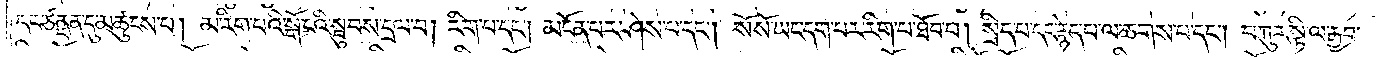དང་ཙནྡན་དུ་མཚུངས་པ། མ་རིག་པའི་སྒོ་ངའི་སྦུབས་དྲལ་བ། རིག་པ་དང༌། མངོན་པར་ཤེས་པ་དང༌། སོ་སོ་ཡང་དག་པར་རིག་པ་ཐོབ་པ། སྲིད་པ་དང་རྙེད་པ་ལ་ཆགས་པ་དང༌། བཀུར་སྟི་ལ་རྒྱབ་
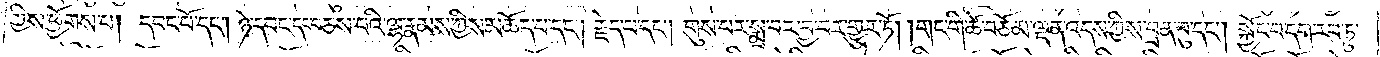ཀྱིས་ཕྱོགས་པ། དབང་པོ་དང༌། ཉེ་དབང་དང་བཅས་པའི་ལྷ་རྣམས་ཀྱིས་མཆོད་པ་དང༌། རྗེད་པ་དང༌། གུས་པར་སྨྲ་བར་བྱ་བར་གྱུར་ཏོ། །གང་གི་ཚེ་བཅོམ་ལྡན་འདས་ཀྱིས་བྲན་བུ་དང༌། སྐྱོང་བ་དག་རབ་ཏུ་
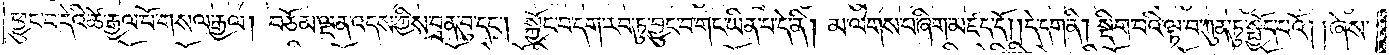ཕྱུང་བ་དེའི་ཚེ་རྒྱལ་པོ་གསལ་རྒྱལ། བཅོམ་ལྡན་འདས་ཀྱིས་བྲན་བུ་དང༌། སྐྱོང་བ་དག་རབ་ཏུ་བྱུང་བ་གང་ཡིན་པ་དེ་ནི། མ་ལེགས་པ་ཞིག་མཛད་དོ། །དེ་དག་ནི། སྡིག་པའི་ལྟ་བ་ཀུན་ཏུ་སྤྱོད་པའོ། །ཞེས་
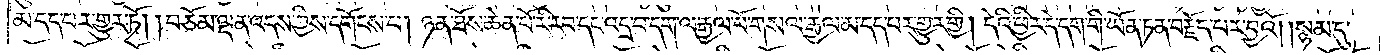མ་དད་པར་གྱུར་ཏོ། །བཅོམ་ལྡན་འདས་ཀྱིས་དགོངས་པ། ཉན་ཐོས་ཆེན་པོ་རི་རབ་དང་འདྲ་བ་དག་ལ་རྒྱལ་པོ་གསལ་རྒྱལ་མ་དད་པར་གྱུར་གྱི། དེའི་ཕྱིར་དེ་དག་གི་ཡོན་ཏན་བརྗོད་པར་བྱའོ། །སྙམ་དུ་
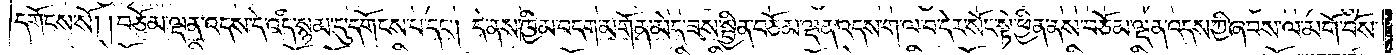དགོངས་སོ། །བཅོམ་ལྡན་འདས་དེ་འདི་སྙམ་དུ་དགོངས་པ་དང༌། དེ་ནས་ཁྱིམ་བདག་མགོན་མེད་ཟས་སྦྱིན་བཅོམ་ལྡན་འདས་ག་ལ་བ་དེར་སོང་སྟེ་ཕྱིན་ནས་བཅོམ་ལྡན་འདས་ཀྱི་ཞབས་ལ་མགོ་བོས་
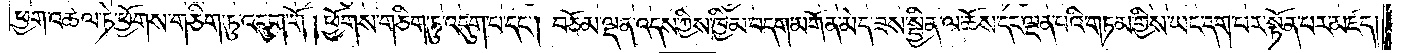ཕྱག་འཚལ་ཏེ་ཕྱོགས་གཅིག་ཏུ་འདུག་གོ །ཕྱོགས་གཅིག་ཏུ་འདུག་པ་དང༌། བཅོམ་ལྡན་འདས་ཀྱིས་ཁྱིམ་བདག་མགོན་མེད་ཟས་སྦྱིན་ལ་ཆོས་དང་ལྡན་པའི་གཏམ་གྱིས་ཡང་དག་པར་སྟོན་པར་མཛད།
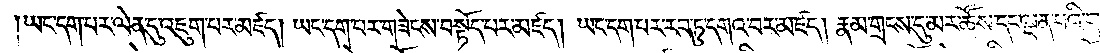ཡང་དག་པར་ལེན་དུ་འཇུག་པར་མཛད། ཡང་དག་པར་གཟེངས་བསྟོད་པར་མཛད། ཡང་དག་པར་རབ་ཏུ་དགའ་བར་མཛད། རྣམ་གྲངས་དུ་མར་ཆོས་དང་ལྡན་པའི་གཏམ་གྱིས་
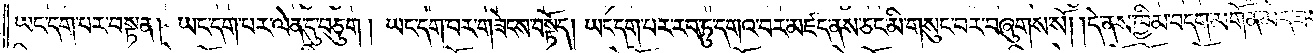ཡང་དག་པར་བསྟན། ཡང་དག་པར་ལེན་དུ་བཅུག། ཡང་དག་པར་གཟེངས་བསྟོད། ཡང་དག་པར་རབ་ཏུ་དགའ་བར་མཛད་ནས་ཅང་མི་གསུང་བར་བཞུགས་སོ། །དེ་ནས་ཁྱིམ་བདག་མགོན་མེད་ཟས་
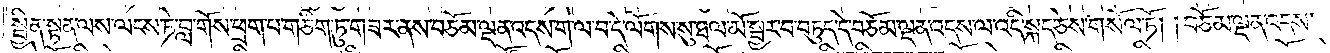སྦྱིན་སྟན་ལས་ལངས་ཏེ་བླ་གོས་ཕྲག་པ་གཅིག་ཏུ་གཟར་ནས་བཅོམ་ལྡན་འདས་ག་ལ་བ་དེ་ལོགས་སུ་ཐལ་མོ་སྦྱར་བ་བཏུད་དེ་བཅོམ་ལྡན་འདས་ལ་འདི་སྐད་ཅེས་གསོལ་ཏོ། །བཅོམ་ལྡན་འདས་
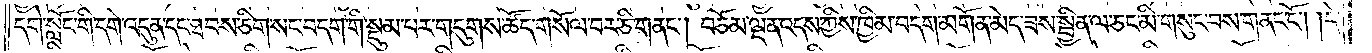དགེ་སློང་གི་དགེ་འདུན་དང་ཐབས་ཅིག་སང་བདག་གི་སྡུམ་པར་གདུགས་ཚོད་གསོལ་བར་ཅི་གནང༌། བཅོམ་ལྡན་འདས་ཀྱིས་ཁྱིམ་བདག་མགོན་མེད་ཟས་སྦྱིན་ལ་ཅང་མི་གསུང་བས་གནང་ངོ༌། །དེ་
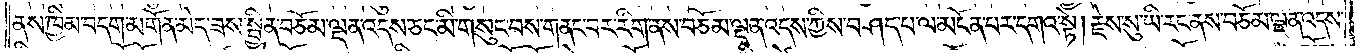ནས་ཁྱིམ་བདག་མགོན་མེད་ཟས་སྦྱིན་བཅོམ་ལྡན་འདས་ཅང་མི་གསུང་བས་གནང་བར་རིག་ནས་བཅོམ་ལྡན་འདས་ཀྱིས་བཤད་པ་ལ་མངོན་པར་དགའ་སྟེ། རྗེས་སུ་ཡི་རང་ནས་བཅོམ་ལྡན་འདས་
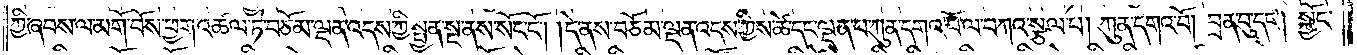ཀྱི་ཞབས་ལ་མགོ་བོས་ཕྱག་འཚལ་ཏེ་བཅོམ་ལྡན་འདས་ཀྱི་སྤྱན་སྔ་ནས་སོང་ངོ༌། །དེ་ནས་བཅོམ་ལྡན་འདས་ཀྱིས་ཚེ་དང་ལྡན་པ་ཀུན་དགའ་བོ་ལ་བཀའ་སྩལ་པ། ཀུན་དགའ་བོ། བྲན་བུ་དང༌། སྐྱོང་
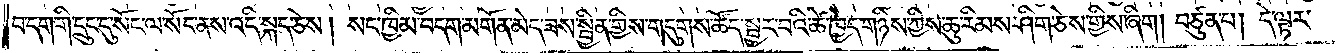བདག་གི་དྲུང་དུ་སོང་ལ་སོང་ནས་འདི་སྐད་ཅེས ། སང་ཁྱིམ་བདག་མགོན་མེད་ཟས་སྦྱིན་གྱིས་གདུགས་ཚོད་སྦྱར་བའི་ཚེ་ཁྱེད་གཉིས་ཀྱིས་ཆུ་རིམས་ཤིག་ཅེས་གྱིས་ཞིག། བཙུན་པ། དེ་ལྟར་
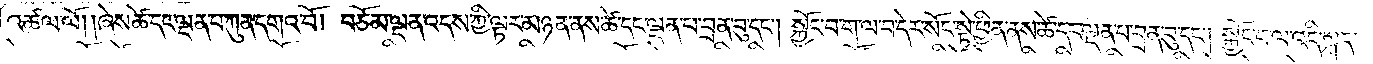འཚལ་ལོ། །ཞེས་ཚེ་དང་ལྡན་པ་ཀུན་དགའ་བོ། བཅོམ་ལྡན་འདས་ཀྱི་ལྟར་མཉན་ནས་ཚེ་དང་ལྡན་པ་བྲན་བུ་དང༌། སྐྱོང་བ་ག་ལ་བ་དེར་སོང་སྟེ་ཕྱིན་ནས་ཚེ་དང་ལྡན་པ་བྲན་བུ་དང༌། སྐྱོང་བ་ལ་འདི་སྐད་
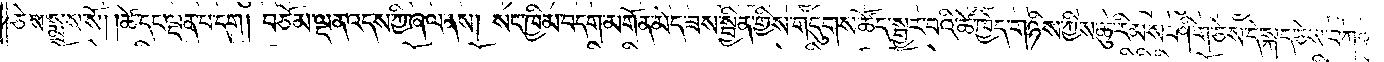ཅེས་སྨྲས་སོ། །ཚེ་དང་ལྡན་པ་དག། བཅོམ་ལྡན་འདས་ཀྱི་ཞལ་ནས། སང་ཁྱིམ་བདག་མགོན་མེད་ཟས་སྦྱིན་གྱིས་གདུགས་ཚོད་སྦྱར་བའི་ཚེ་ཁྱེད་གཉིས་ཀྱིས་ཆུ་རིམས་ཤིག་ཅེས་དེ་སྐད་ཅེས་བཀའ་
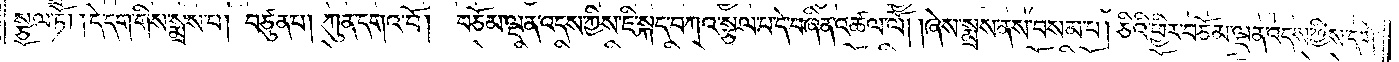སྩལ་ཏོ། །དེ་དག་གིས་སྨྲས་པ། བཙུན་པ། ཀུན་དགའ་བོ། བཅོམ་ལྡན་འདས་ཀྱིས་ཇི་སྐད་བཀའ་སྩལ་པ་དེ་བཞིན་འཚལ་ལོ། །ཞེས་སྨྲས་ནས་བསམ་པ། ཅིའི་ཕྱིར་བཅོམ་ལྡན་འདས་ཀྱིས་དགེ་
